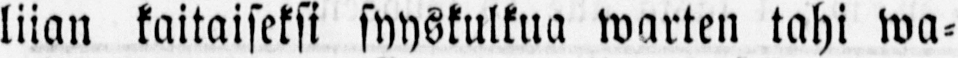liian kaitaiseksi syyskulkua warten tahi wa-
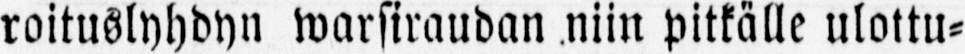roituslyhdyn warsiraudan niin pitkälle ulottu-
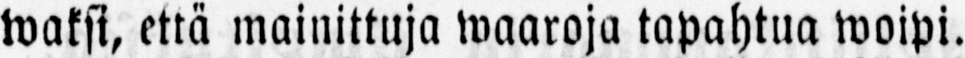waksi, että mainittuja waaroja tapahtua woipi.
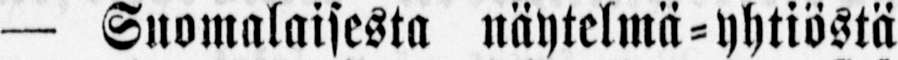— Suomalaisesta näytelmä-yhtiöstä
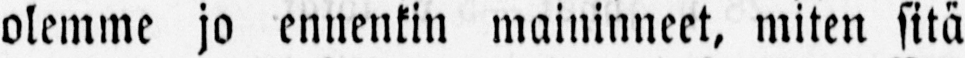olemme jo ennenkin maininneet, miten sitä
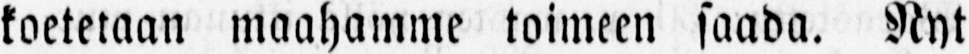koetetaan maahamme toimeen saada. Nyt
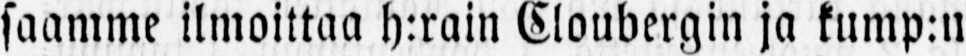saamme ilmoittaa h:rain Cloubergin ja kump:n
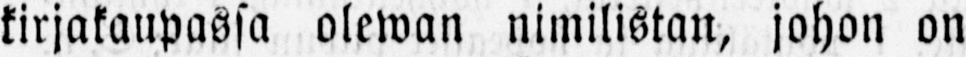kirjakaupassa olewan nimilistan, johon on
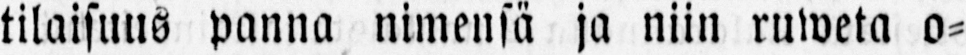tilaisuus panna nimensä ja niin ruweta o-
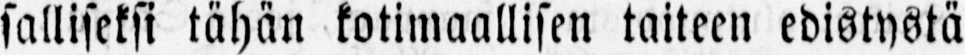salliseksi tähän kotimaallisen taiteen edistystä
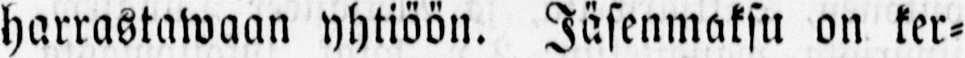harrastawaan yhtiöön. Jäsenmaksu on ker-
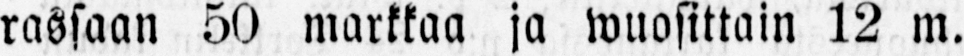rassaan 50 markkaa ja wuosittain 12 m.
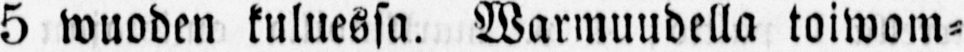5 wuoden kuluessa. Warmuudella toiwom-
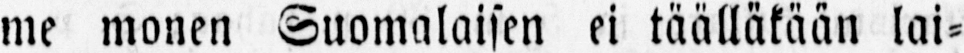me monen Suomalaisen ei täälläkään lai-
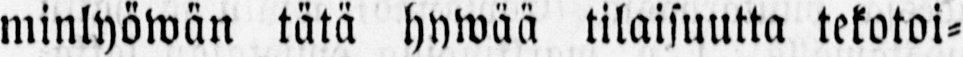minlyöwän tätä hywää tilaisuutta tekotoi-
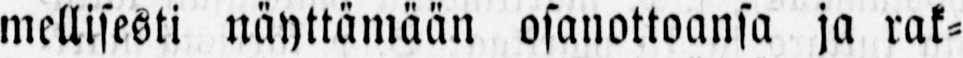mellisesti näyttämään osanottoansa ja rak-
